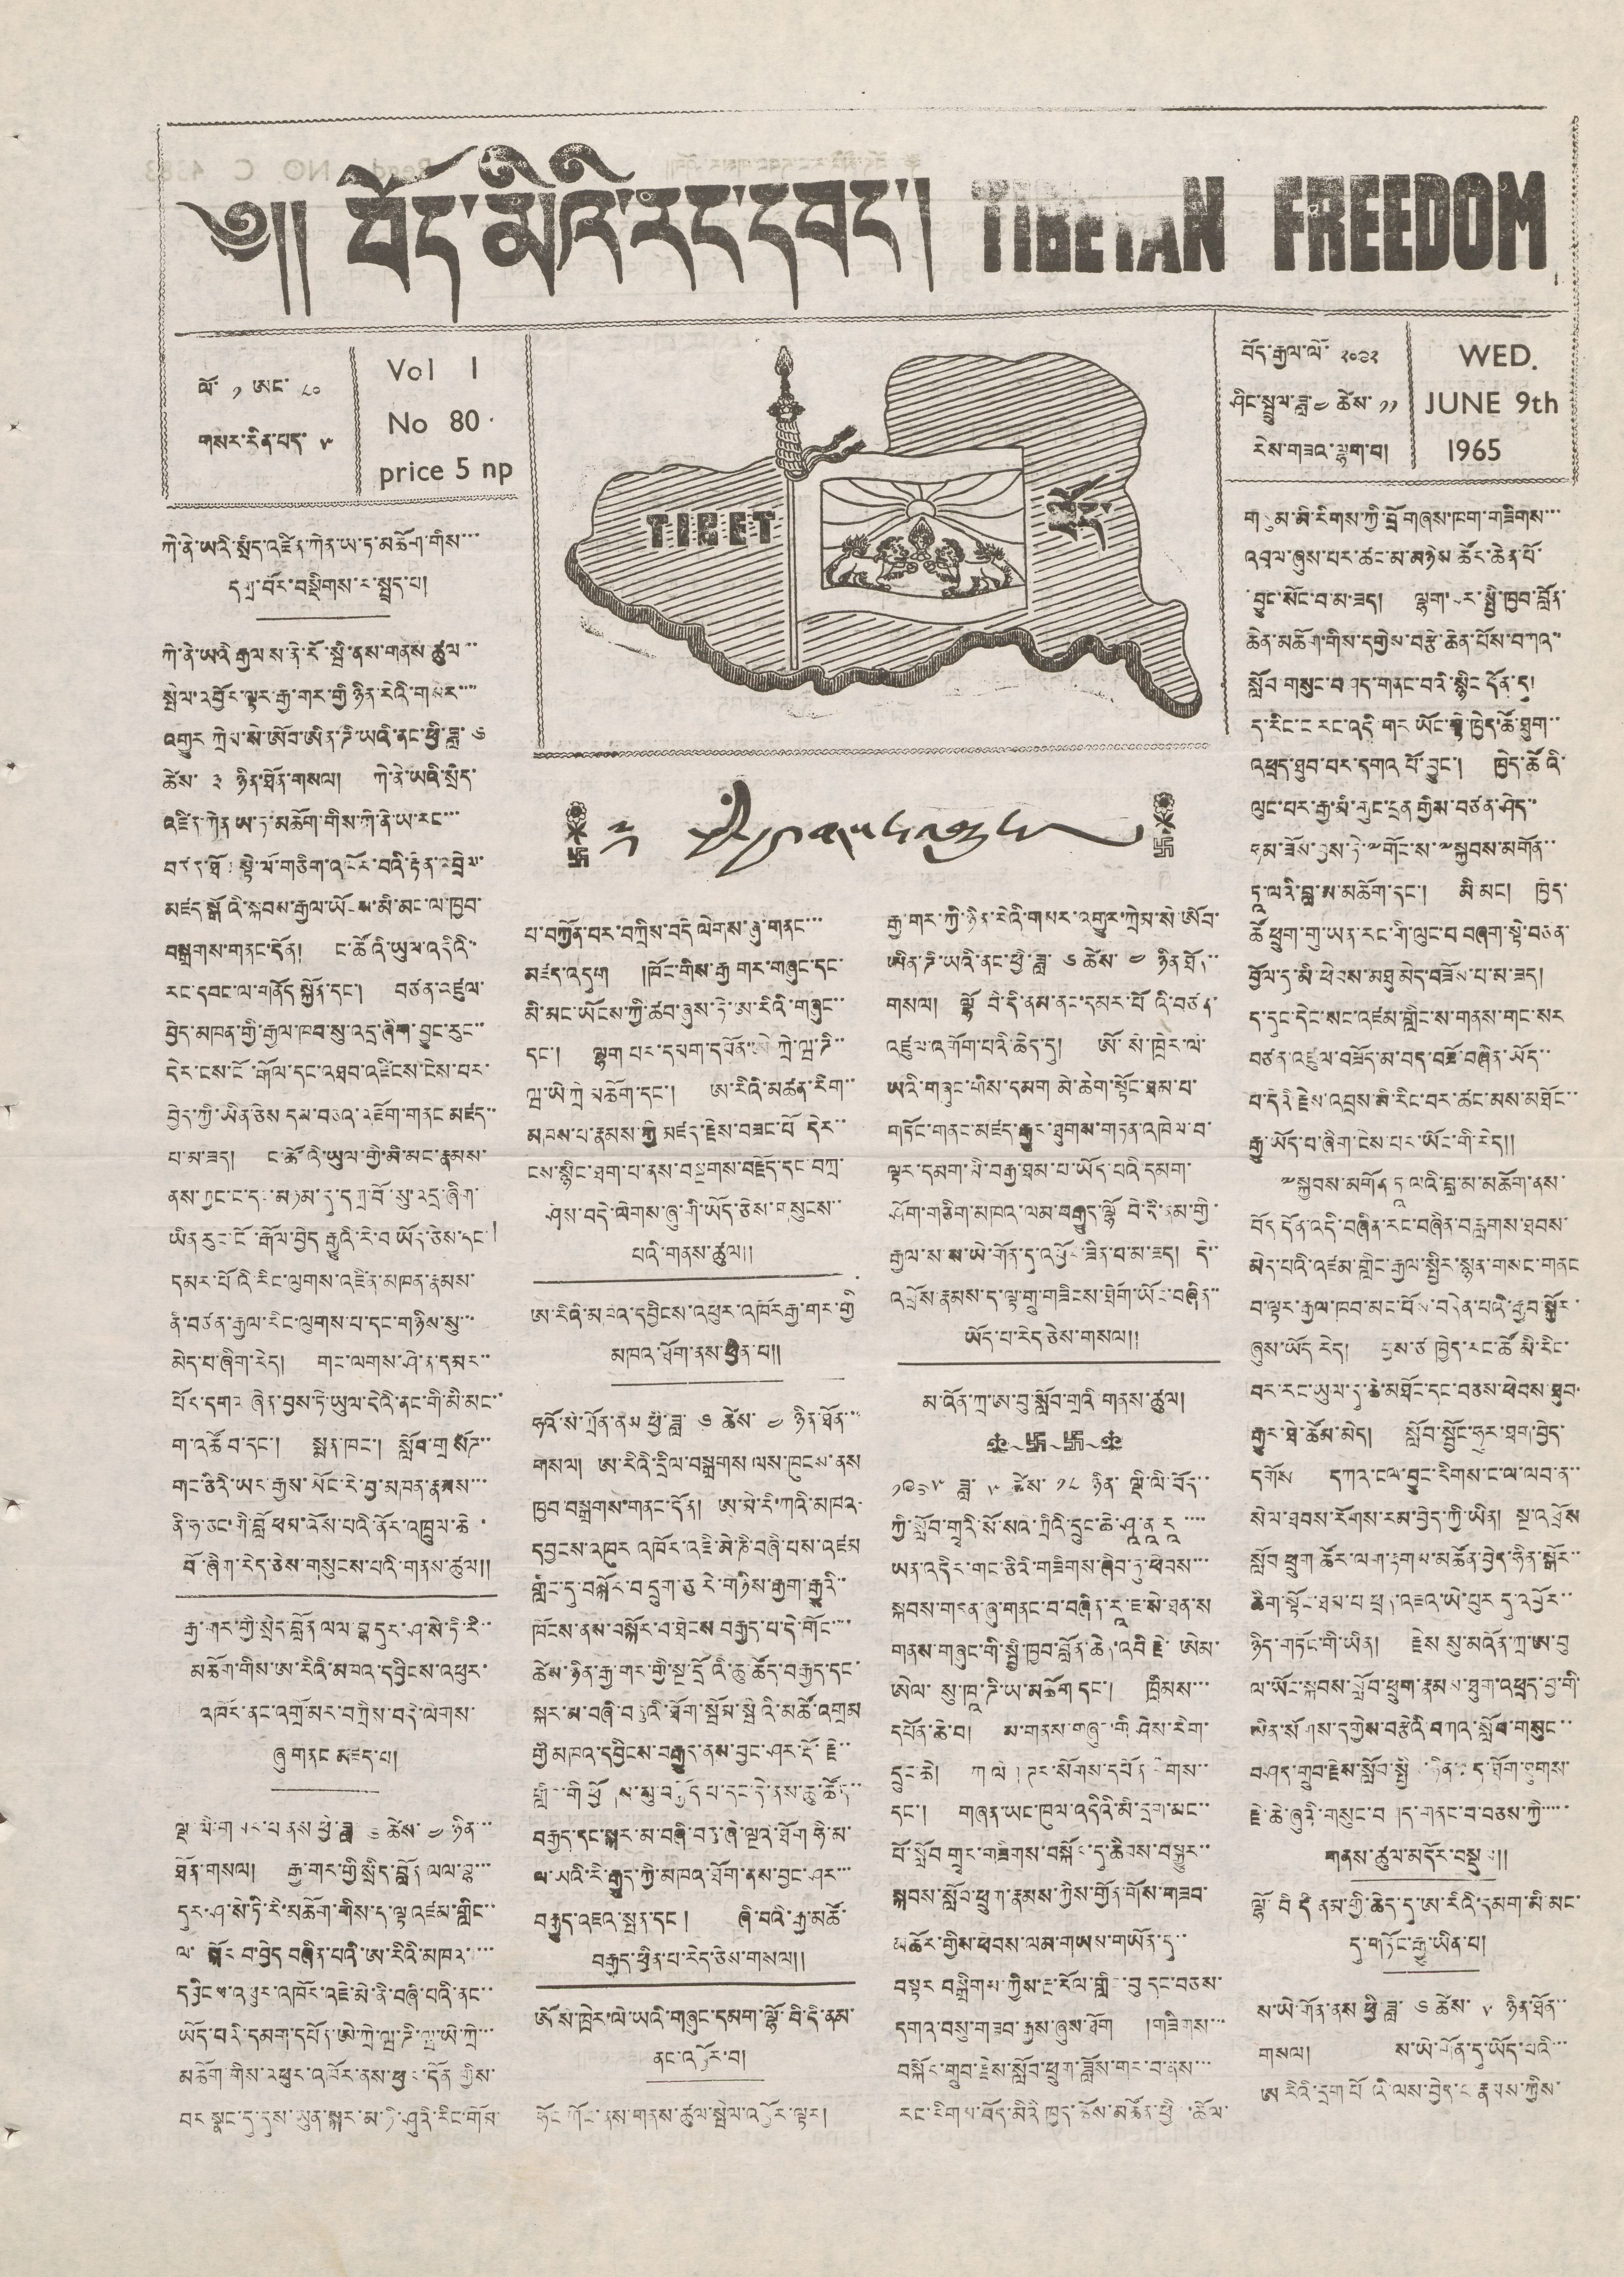༄།། བོད་མིའི་རང་དབང་། TIBETAN FREEDOM
TIBET བོད་
༈ ཕྱི་རྒྱལ་གསར་འགྱུར།
ལོ་ ༡ ཨང་ ༨༠
གསར་རིན་པད་ ༥
Vol 1
No 80
price 5 np
བོད་རྒྱལ་ལོ་ ༢༠༩༢
ཤིང་སྤྲུལ་ཟླ་ ༤ ཚེས་ ༡༡
རེས་གཟའ་ལྷག་པ།
WED
JUNE 9th
1965
ཀེ་ནེ་ཡའི་སྲིད་འཛིན་ཀེན་ཡ་ཏ་མཆོག་གིས་་་
དགྲ་བོར་བསྡིགས་ར་སྤྲད་པ།
ཀེ་ནེ་ཡའི རྒྱལ་ས་ནེ་རོ་སྦི་ནས་གནས་ཚུལ་་
སྤེལ་འབྱོར་ལྟར་རྒྱ་གར་གྱི ཉིན་རེའི་གསར་་་་
འགྱུར ཀྲེམ་སེ་ཨོབ་ཨིན་ཌི་ཡའི་ནང་ཕྱི་ཟླ ༦
ཚེས་ ༣ ཉིན་ཐོན་གསལ། ཀེ་ནེ་ཡའི་སྲིད་
འཛིན་ཀེན ཡ་ཏ་མཆོག་གིས་ཀེ་ནེ་ཡ་རང་་་
བཙད་ཐོ  སྟེ་ལོ་གཅིག་འཁོར་བའི་རྟེན་འབྲེལ་
མཛད་སྒོའི་སྐབས་རྒྱལ་ཡོངས་མི་མང་ལ་ཁྱབ་
བསྒྲགས་གནང་དོན། ང་ཚོའི་ཡུལ་འདིའི་་
རང་དབང་ལ་གནོད སྐྱོན་དང་། བཙན་འཛུལ་
བྱེད་མཁན་གྱི་རྒྱལ་ཁབ་སུ་འདྲ་ཞིག་བྱུང་རུང་་
དེར་ངས་ངོ་རྒོད་དང་འཐབ་འཛིངས་ངེས་བར་
བྱེད་ཀྱི་ཡིན་ཅེས དམ་བཅའ་འཇོག་གནང མཛད་་
པ་མ་ཟད། ང་ཚོའི་ཡུལ་གྱི་མི་མང་རྣམས་
ནས་ཀྱང་ང་དང་མཉམ་དུ་དགྲ་བོ་སུ་འདྲ་ཞིག་
ཡིན རུང་ངོ་རྒོལ་བྱེད རྒྱུའི་རེ་བ ཡོད་ཅེས་དང་
དམར་པོའི་རིང་ལུགས་འཛིན་མཁན་རྣམས་
ནི་བཙན་རྒྱལ་རིང་ལུགས་པ་དང་གཉིས་སུ་་་
མེད་པ་ཞིག་རེད། གང་ལགས་ཤེ་ན་དམར་་
པོར་དགའ ཞེན་བྱས་ཏེ་ཡུལ་དེའི་ནང་གི་མི་མང་་
ག་འཚོ བ་དང་། སྨན་ཁང་། སློབ་གྲ སོཌ་་
གང་ཅིའི་ཡར་རྒྱས་ཡོང་རེ་བྱ་མཁན་རྣམས་་་
ནི་ཧ་ཅང་གི་བློ ཕམ་འོས་པའི་ནོར་འཁྲུལ་ཆེ ་
བོ་ཞིག་རེད་ཅེས་གསུངས་པའི་གནས་ཚུལ།།
རྒྱ་གར་གྱི་སྲིད་བློན ལལ་བྷ་དུར་ཤ་སེ་ཏེ་རི་་
མཆོག་གིས་ཨ་རིའི་མཁའ་དབྱིངས་འཕུར་
འཁོར་ནང་འགྲོ་མར་བཀྲིས་བདེ་ལེགས་
ཞུ་གནང་མཛད་པ།
ལྡི་ལི་གསར་པ ནས་ཕྱི་ཟླ་ ༦ ཚེས་ ༤ ཉིན་་་
ཐོན་གསལ། རྒྱ་གར་གྱི་སྲིད་བློན་ལལ་བྷ་་་
དུར་ཤ་སེ་ཏི་རི་མཆོག་གིས་ད་ལྟ འཛམ་གླིང་་
ལ་སྐོར་བ་བྱེད་བཞིན་པའི་ཨ་རིའི་མཁའ་་་་
དབྱིངས་འཕུར་འཁོར་འཇེ་མེ་ནི་བཞི་པའི་ནང་་
ཡོད་པའི་དམག་དཔོན་ཨེ་ཀྲེ་ཝ་ཌི་ཝ་ཡེ་ཀྲེ་་་
མཆོག་གིས་འཕུར་འཁོར་ནས་ཕྱར་དོན་གྱིས་
བར སྣང་དུ་དུས་ཡུན་སྐར་མ་ཉི་ཤུའི་རིང་གོམ་
པ་བཀྱོན་པར་བཀྲིས་བདེ་ ལེགས་ཞུ་གནང་་་
མཛད་འདུག །ཁོང་གིས་རྒྱ གར་གཞུང་དང་
མི་མང་ཡོངས་ཀྱི་ཚབ་ཞུས་ཏེ་ཨ་རིའི་གཞུང་་
དང་། ལྷག པར་དམག་དཔོན་ཨེ ཀྲེ་ཝ་ཌི་་
ཝ་ཡེ་ཀྲེ མཆོག་དང་། ཨ་རིའི་མཚན་རིག་་
མཁས་པ་རྣམས་གྱི མཛད་རྗེས་བཟང་པོ དེར་་
ངས་སྙིང་ཐག་པ་ནས་བསྔགས་བརྗོད་དང་བཀྲ་
ཤིས་བདེ་ལེགས་ཞུ་གི་ཡོད་ཅེས་གསུངས་་
པའི་གནས་ཚུལ།།
ཨ་རིའི་མཁའ་དབྱིངས་འཕུར་འཁོར་རྒྱ་གར་གྱི
མཁའ་ཐོག་ནས་ཕྱིན་པ།།
ཧའོ་སེ་ཀྲོན་ནས ཕྱི་ཟླ་ ༦ ཚེས་ ༤ ཉིན་ཐོན་་་
གསལ། ཨ་རིའི་དྲིལ་བསྒྲགས ལས་ཁུངས་ནས
ཁྱབ་བསྒྲགས་གནང་དོན། ཨ་མེ་རི་ཀའི་མཁའ
དབྱངས་འཁུར འཁོར་འཇི་མེ་ཎི་བཞི་པས་འཛམ
གླིང་དུ་བསྐོར་བ་དྲུག་ཅུ་རེ་གཉིས་རྒྱག་རྒྱུའི་་
ཁོངས་ནས་བསྐོར་བ་ཐེངས བརྒྱད་པ་དེ་གོང་་་་
ཚེས་ཉིན་རྒྱ་གར་གྱི་སྔ་དྲོའི་ཆུ་ཚོད་བརྒྱད་དང་
སྐར་མ་བཞི་བཅུའི་ཐོག་སྦོམ་སྦེའི་མཚོ་འགྲམ
གྱི་མཁའ་དབྱིངས་བརྒྱུད་ནས་བྱང་ཤར་རྡོ་རྗེ་་
གླིང་གི ཕྱོགས་སུ་བསྐྱོད་པ་དང་དེ་ནས་ཆུ་ཚོད་་
བརྒྱད་དང་སྐར་མ་བཞི་བཅུ་ཞེ་ལྔའི་ཐོག ཧི་མ་
ལ་ཡའི་རི་རྒྱུད་ཀྱི་མཁའ་ཐོག་ནས་བྱང་ཤར་་་
བརྒྱུད་འཇའ་སྤན་དང་། ཞི་བའི་རྒྱ་མཚོ་
བརྒྱད་ཕྱིན་པ་རེད་ཅེས་གསལ།།
ཨོ་སེ་ཁྲེར་ལེ་ཡའི་གཞུང་དམག་ལྷོ་བི་དི་ནམ་
ནང་འབྱོར་བ།
ཧོང ཀོང་ནས་གནས་ཚུལ་སྤེལ་འབྱོར་ལྟར།
རྒྱ་གར་ཀྱི་ཉིན་རེའི་གསར་འགྱུར་ཀྲེམ་སེ་ཨོབ་
ཨིན་ཌི་ཡའི་ནང་ཕྱི་ཟླ་ ༦ ཚེས་ ༤ ཉིན་ཐོན་་
གསལ། ལྷོ བི་དི་ནམ་ནང་དམར་པོའི་བཙན་
འཛུལ་འགོག་པའི་ཆེད་དུ། ཨོ་སེ་ཁྲེར་ལེ་
ཡའི་གཞུང་གིས་དམག མེ་ཆེག་སྟོང་ཐམ་པ་
གཏོང་གནང་མཛད་རྒྱུར་ཐུགས་གཏན་འཁེལ་བ་
ལྟར་དམག་མི་བརྒྱ་ཐམ་པ་ཡོད་པའི་དམག་
ཤོག་གཅིག་མཁའ་ལམ་བརྒྱུད་ལྷོ བེ་དི་ནམ་གྱི་
རྒྱལ་ས་ས་སེ་གོན་དུ་འབྱོར་ཟིན་པ་མ་ཟད། དེ་་
འཕྲོས་རྣམས་ད་ལྟ་གྲུ་གཟིངས་ཐོག་ཡོང་བཞིན་་
ཡོད་པ་རེད ཅེས་གསལ།།
མ་འོན་ཀྲ་ཨ་བུ་སློབ་གྲའི་གནས་ཚུལ།
༡༩༦༥ ཟླ་ ༥ ཚེས་ ༡༨ ཉིན་ ལྡི་ལི་བོད་་
ཀྱི་སློབ་གྲྭའི་སོ་སའི་ཀྲིའི་དྲུང་ཆེ་ཤཱ་ནཱ་རཱ་་་་
ཡན་འདིར་གང་ཅིའི་གཟིགས་ཞིབ་ཏུ་ཕེབས་་་
སྐབས་གདན་ཞུ་གནང་བ་བཞིན་རཱ་ཇ་སེ་ཐན་ས
གནས་གཞུང་གི་སྤྱི་ཁྱབ་བློན་ཆེན་འབི རྗེ་ཨེམ་
ཨེལ་ སུ་ཁཱ་ཌི་ཡ་མཆོག དང་། ཁྲིམས་་་
དཔོན་ཆེ་བ། ས་གནས་གཞུང་གི ཤེས་རིག་
དྲུང་ཆེ། ཀ ལེག ཊར་སོགས་དཔོན་རིགས་་
དང་། གཞན་ཡང་ཁུལ་འདིའི་མི་དྲག་མང་་
པོ་སློབ གྲྭར་གཟིགས་བསྐོར་དུ་ཆིབས་བསྒྱུར་་
སྐབས་སློབ་ཕྲུག་རྣམས་ཀྱིས་གྱོན་གོས་གཟབ་
མཆོར་གྱིས་ཕེབས་ལམ་གཡས་གཡོན་དུ་་
བསྟར བསྒྲིགས་ཀྱིས་རྔ་རོལ་གླིང་བུ་དང་བཅས་
དགའ་བསུ་གཟབ་རྒྱས་ཞུས་ཐོག །གཟིགས་་་
བསྐོར་གྲུབ་རྗེས་སློབ་ཕྲུག་ཟློས་གར་བ་ནས་་་
རང་རིགས་བོད་མིའི ཁྱད་ཆོས་མཚོན་ཕྱིན་ཆོལ་
གསུམ་མི་རིགས་ཀྱི་བྲོ གཞས་ཁག་གཟིགས་་་
འབུལ་ཞུས་པར་ཚང་མ་མཉེས ཚོར་ཆེན་པོ་
བྱུང་སོང་བ་མ་ཟད། ལྷག་པར་སྤྱི་ཁྱབ་བློན་
ཆེན་མཆོག་གིས་དགྱེས་བརྩེ་ཆེན་པོས་བཀའ་་
སློབ་གསུང་བཤད་གནང་བའི་སྙིང་དོན་དུ།
ད་རིང་ང རང་འདི་གར ཡོང་སྟེ་ཁྱེད་ཚོ་ཐུག་་
འཕྲད་ཐུབ་པར་དགའ པོ་བྱུང་། ཁྱེད་ཚོའི་
ལུང་པར་རྒྱ་མི་གུང་དྲན གྱིས་བཙན་ཤེད་་
ཧམ་ཟོས་བྱས་ཏེ་༸གོང་ས་༸སྐྱབས་མགོན་་
ཏཱ་ལའི་བླ་མ་མཆོག་དང་། མི་མང་། ཁྱེད་
ཚོ་ཕྲུག་གུ་ཡན་རང་གི་ལུང་པ བཞག་སྟེ་བཙན་
བྱོལ་དུ་མི་ཕེབས་མཐུ་མེད་བཟོས་པ་མ་ཟད།
ད་དུང་དེང་སང་འཛམ་གླིང་ས་གནས་གང་སར
བཙན་འཛུལ་བཟོད་མ་བད་བཟོ་བཞིན་ཡོད་་
པ་དེའི་རྗེས་འབྲས་མི་རིང་བར་ཚང་མས་མཐོང་་
རྒྱུ་ཡོད་པ་ཞིག་ངེས་པར་ཡོང་གི་རེད།།
༸སྐྱབས་མགོན་ཏཱ ལའི་བླ་མ་མཆོག་ནས་
བོད་དོན་འདི་བཞིན་རང་བཞིན་བརླགས་ཐབས་
མེད་པའི་འཛམ་གླིང་རྒྱལ་སྤྱིར་སྙམ་གསང་གནང
བ་ལྟར་རྒྱལ་ཁབ་མང་པོས་བདེན་པའི་རྒྱབ་སྐྱོར་
ཞུས་ཡོད རེད། བྱས་ཙ ཁྱེད་རང་ཚོ མི་རིང་
བར་རང་ཡུལ་དུ་ཆེ་མཐོང་དང་བཅས་ཕེབས་ཐུབ་
རྒྱུར་ཐེ་ཚོམ་མེད། སློབ་སྦྱོང་ཧུར་ཐག་བྱེད་
དགོས དཀའ་ངལ་བྱུང་རིགས་ང་ལ་ལབ་ན་་
སེལ་ཐབས་རོགས་རམ་བྱེད་ཀྱི་ཡིན། སྔ་འཕྲོས
སློབ ཕྲུག ཚོར་ལག་རྟགས་མཚོན་བྱེད་ཧིན་སྒོར་་
ཆིག་སྟོང་ཐམ་པ ཕྲད་འཇའ་ཡེ་པུར དུ་འབྱོར་་
ཉིད་གཏོང་གི་ཡིན། རྗེས སུ་མའོན་ཀྲ་ཨ་བུ
ལ་ཡོང་སྐབས་སློབ་ཕྲྱག་རྣམས་ཐུག་འཕྲད་བྱ་གི་
ཡིན་སོགས་དགྱེས་བརྩེའི་བཀའ་སློབ་གསུང་་
བཤད་གྲུབ་རྗེས་སློབ་སྤྱིན་ཉིན་ ད་ཐོག་ཐུགས་
རྗེ་ཆེ་ཞུའི་གསུང་བཤད་གནང་བ་བཅས་ཀྱི་་་་་
གནས་ཚུལ་མདོར་བསྡུས།།
ལྷོ་བི དི ནམ་གྱི་ཆེད་དུ་ཨ་རིའི་དམག་མི་མང་
དུ་གཏོང་རྒྱུ་ཡིན་པ།
ས་ཡེ་གོན་ནས་ཕྱི་ཟླ་ ༦ ཚེས་ ༥ ཉིན་ཐོན་་
གསལ། ས་ཡེ་གོན་དུ་ཡོད་པའི་་་
ཨ རིའི་དྲག་པོ འི་ལས་བྱེད་པ་རྣམས་ཀྱིས་
